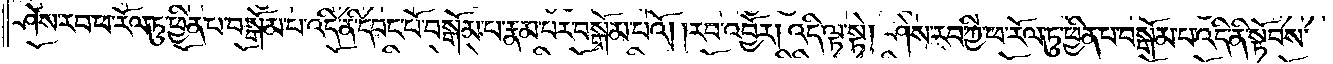ཤེས་རབ་ཀྱི་ཕ་རོལ་ཏུ་ཕྱིན་པ་བསྒོམ་པ་འདི་ནི་དབང་པོ་བསྒོམ་པ་རྣམ་པར་བསྒོམ་པའོ། །རབ་འབྱོར། འདི་ལྟ་སྟེ། ཤེས་རབ་ཀྱི་ཕ་རོལ་ཏུ་ཕྱིན་པ་བསྒོམ་པ་འདི་ནི་སྟོབས་
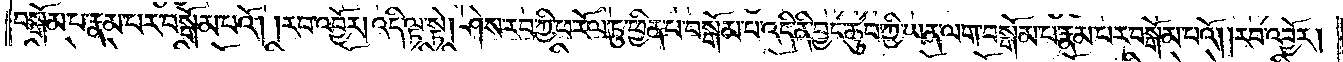བསྒོམ་པ་རྣམ་པར་བསྒོམ་པའོ། །རབ་འབྱོར། འདི་ལྟ་སྟེ། ཤེས་རབ་ཀྱི་ཕ་རོལ་ཏུ་ཕྱིན་པ་བསྒོམ་པ་འདི་ནི་བྱང་ཆུབ་ཀྱི་ཡན་ལག་བསྒོམ་པ་རྣམ་པར་བསྒོམ་པའོ། །རབ་འབྱོར།
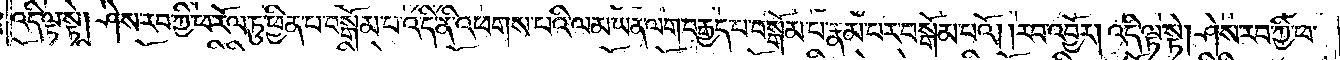འདི་ལྟ་སྟེ། ཤེས་རབ་ཀྱི་ཕ་རོལ་ཏུ་ཕྱིན་པ་བསྒོམ་པ་འདི་ནི་འཕགས་པའི་ལམ་ཡན་ལག་བརྒྱད་པ་བསྒོམ་པ་རྣམ་པར་བསྒོམ་པའོ། །རབ་འབྱོར། འདི་ལྟ་སྟེ། ཤེས་རབ་ཀྱི་ཕ་
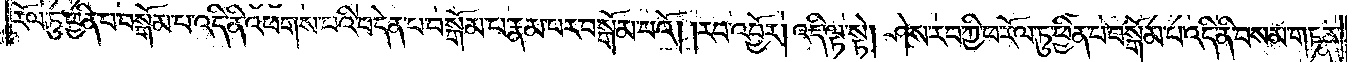རོལ་ཏུ་ཕྱིན་པ་བསྒོམ་པ་འདི་ནི་འཕགས་པའི་བདེན་པ་བསྒོམ་པ་རྣམ་པར་བསྒོམ་པའོ། །རབ་འབྱོར། འདི་ལྟ་སྟེ། ཤེས་རབ་ཀྱི་ཕ་རོལ་ཏུ་ཕྱིན་པ་བསྒོམ་པ་འདི་ནི་བསམ་གཏན་
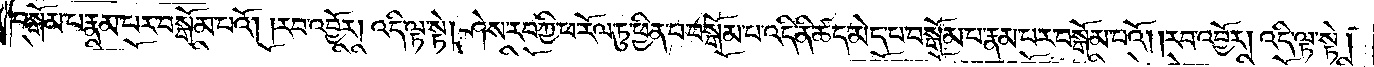བསྒོམ་པ་རྣམ་པར་བསྒོམ་པའོ། །རབ་འབྱོར། འདི་ལྟ་སྟེ། ཤེས་རབ་ཀྱི་ཕ་རོལ་ཏུ་ཕྱིན་པ་བསྒོམ་པ་འདི་ནི་ཚད་མེད་པ་བསྒོམ་པ་རྣམ་པར་བསྒོམ་པའོ། །རབ་འབྱོར། འདི་ལྟ་སྟེ།
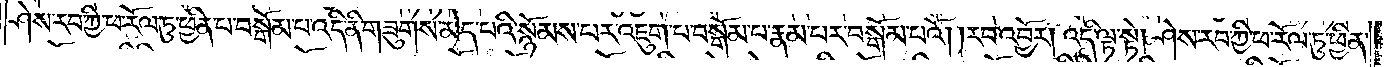ཤེས་རབ་ཀྱི་ཕ་རོལ་ཏུ་ཕྱིན་པ་བསྒོམ་པ་འདི་ནི་གཟུགས་མེད་པའི་སྙོམས་པར་འཇུག་པ་བསྒོམ་པ་རྣམ་པར་བསྒོམ་པའོ། །རབ་འབྱོར། འདི་ལྟ་སྟེ། ཤེས་རབ་ཀྱི་ཕ་རོལ་ཏུ་ཕྱིན་
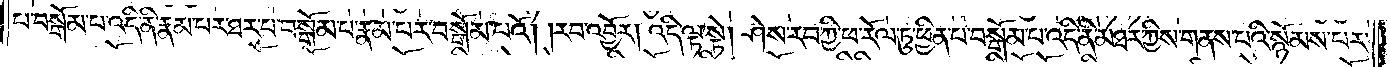པ་བསྒོམ་པ་འདི་ནི་རྣམ་པར་ཐར་པ་བསྒོམ་པ་རྣམ་པར་བསྒོམ་པའོ། །རབ་འབྱོར། འདི་ལྟ་སྟེ། ཤེས་རབ་ཀྱི་ཕ་རོལ་ཏུ་ཕྱིན་པ་བསྒོམ་པ་འདི་ནི་མཐར་གྱིས་གནས་པའི་སྙོམས་པར་
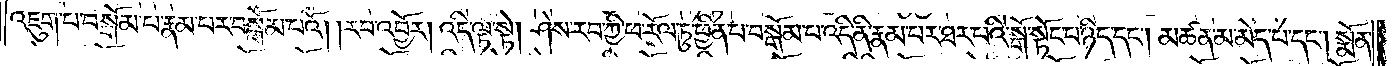འཇུག་པ་བསྒོམ་པ་རྣམ་པར་བསྒོམ་པའོ། །རབ་འབྱོར། འདི་ལྟ་སྟེ། ཤེས་རབ་ཀྱི་ཕ་རོལ་ཏུ་ཕྱིན་པ་བསྒོམ་པ་འདི་ནི་རྣམ་པར་ཐར་པའི་སྒོ་སྟོང་པ་ཉིད་དང༌། མཚན་མ་མེད་པ་དང༌། སྨོན་
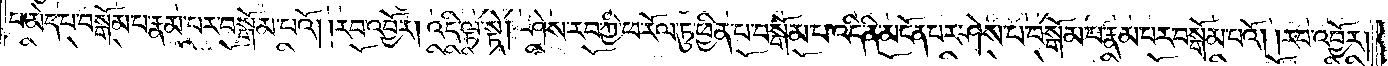པ་མེད་པ་བསྒོམ་པ་རྣམ་པར་བསྒོམ་པའོ། །རབ་འབྱོར། འདི་ལྟ་སྟེ། ཤེས་རབ་ཀྱི་ཕ་རོལ་ཏུ་ཕྱིན་པ་བསྒོམ་པ་འདི་ནི་མངོན་པར་ཤེས་པ་བསྒོམ་པ་རྣམ་པར་བསྒོམ་པའོ། །རབ་འབྱོར།
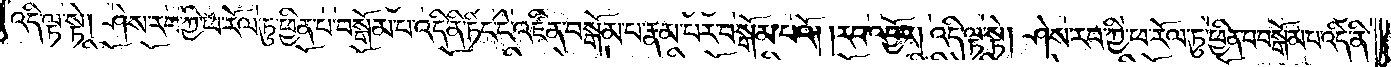འདི་ལྟ་སྟེ། ཤེས་རབ་ཀྱི་ཕ་རོལ་ཏུ་ཕྱིན་པ་བསྒོམ་པ་འདི་ནི་ཏིང་ངེ་འཛིན་བསྒོམ་པ་རྣམ་པར་བསྒོམ་པའོ། །རབ་འབྱོར། འདི་ལྟ་སྟེ། ཤེས་རབ་ཀྱི་ཕ་རོལ་ཏུ་ཕྱིན་པ་བསྒོམ་པ་འདི་ནི་
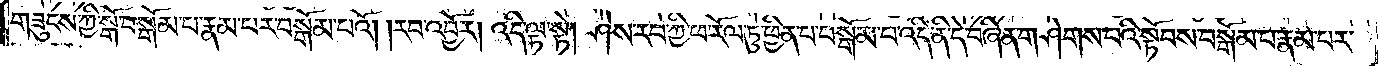གཟུངས་ཀྱི་སྒོ་བསྒོམ་པ་རྣམ་པར་བསྒོམ་པའོ། །རབ་འབྱོར། འདི་ལྟ་སྟེ། ཤེས་རབ་ཀྱི་ཕ་རོལ་ཏུ་ཕྱིན་པ་བསྒོམ་པ་འདི་ནི་དེ་བཞིན་གཤེགས་པའི་སྟོབས་བསྒོམ་པ་རྣམ་པར་
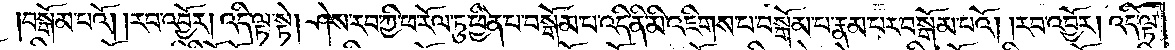བསྒོམ་པའོ། །རབ་འབྱོར། འདི་ལྟ་སྟེ། ཤེས་རབ་ཀྱི་ཕ་རོལ་ཏུ་ཕྱིན་པ་བསྒོམ་པ་འདི་ནི་མི་འཇིགས་པ་བསྒོམ་པ་རྣམ་པར་བསྒོམ་པའོ། །རབ་འབྱོར། འདི་ལྟ་
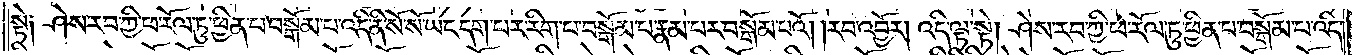སྟེ། ཤེས་རབ་ཀྱི་ཕ་རོལ་ཏུ་ཕྱིན་པ་བསྒོམ་པ་འདི་ནི་སོ་སོ་ཡང་དག་པར་རིག་པ་བསྒོམ་པ་རྣམ་པར་བསྒོམ་པའོ། །རབ་འབྱོར། འདི་ལྟ་སྟེ། ཤེས་རབ་ཀྱི་ཕ་རོལ་ཏུ་ཕྱིན་པ་བསྒོམ་པ་འདི་
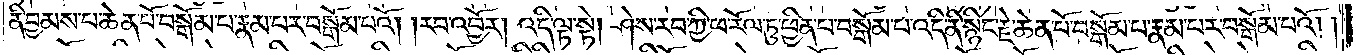ནི་བྱམས་པ་ཆེན་པོ་བསྒོམ་པ་རྣམ་པར་བསྒོམ་པའོ། །རབ་འབྱོར། འདི་ལྟ་སྟེ། ཤེས་རབ་ཀྱི་ཕ་རོལ་ཏུ་ཕྱིན་པ་བསྒོམ་པ་འདི་ནི་སྙིང་རྗེ་ཆེན་པོ་བསྒོམ་པ་རྣམ་པར་བསྒོམ་པའོ། །
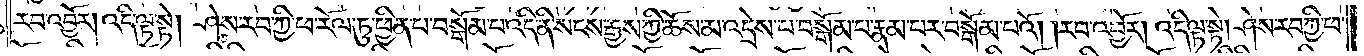རབ་འབྱོར། འདི་ལྟ་སྟེ། ཤེས་རབ་ཀྱི་ཕ་རོལ་ཏུ་ཕྱིན་པ་བསྒོམ་པ་འདི་ནི་སངས་རྒྱས་ཀྱི་ཆོས་མ་འདྲེས་པ་བསྒོམ་པ་རྣམ་པར་བསྒོམ་པའོ། །རབ་འབྱོར། འདི་ལྟ་སྟེ། ཤེས་རབ་ཀྱི་ཕ་
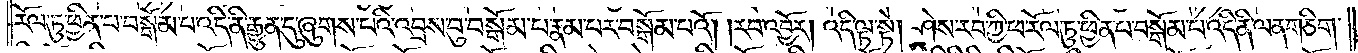རོལ་ཏུ་ཕྱིན་པ་བསྒོམ་པ་འདི་ནི་རྒྱུན་དུ་ཞུགས་པའི་འབྲས་བུ་བསྒོམ་པ་རྣམ་པར་བསྒོམ་པའོ། །རབ་འབྱོར། འདི་ལྟ་སྟེ། ཤེས་རབ་ཀྱི་ཕ་རོལ་ཏུ་ཕྱིན་པ་བསྒོམ་པ་འདི་ནི་ལན་གཅིག་
